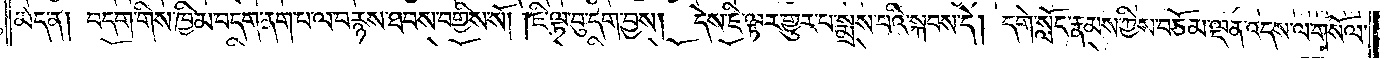མད་ན། བདག་གིས་ཁྱིམ་བདག་ནག་པ་ལ་བརྙས་ཐབས་བགྱིས་སོ། །ཇི་ལྟ་བུ་དག་བྱས། དེས་ཇི་ལྟར་གྱུར་པ་སྨྲས་པའི་སྐབས་དེ། དགེ་སློང་རྣམས་ཀྱིས་བཅོམ་ལྡན་འདས་ལ་གསོལ་
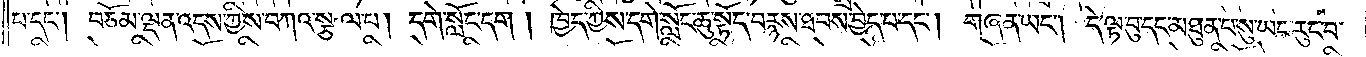པ་དང༌། བཅོམ་ལྡན་འདས་ཀྱིས་བཀའ་སྩལ་པ། དགེ་སློང་དག །ཁྱེད་ཀྱིས་དགེ་སློང་ཆུ་སྟོད་བརྙས་ཐབས་བྱེད་པ་དང༌། གཞན་ཡང༌། དེ་ལྟ་བུ་དང་མཐུན་པ་སུ་ཡང་རུང་བ་
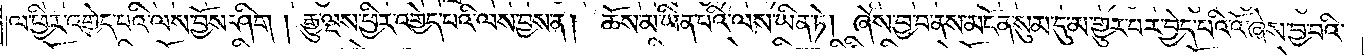ལ་ཕྱིར་འགྱེད་པའི་ལས་བྱོས་ཤིག །རྒྱུ་ལྔས་ཕྱིར་འགྱེད་པའི་ལས་བྱས་ན། ཆོས་མ་ཡིན་པའི་ལས་ཡིན་ཏེ། ཞེས་བྱ་བ་ནས་མངོན་སུམ་དུ་མ་གྱུར་པར་བྱེད་པའི་འོ་ཞེས་བྱ་བའི་
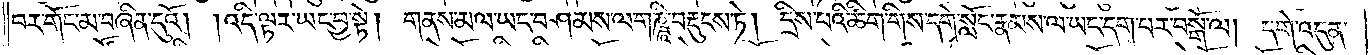བར་གོང་མ་བཞིན་དུའོ། །འདི་ལྟར་ཡང་བྱ་སྟེ། གནས་མལ་ཡང་བཤམས་ལ་གཎྜཱི་བརྡུངས་ཏེ། དྲིས་པའི་ཚིག་གིས་དགེ་སློང་རྣམས་ལ་ཡང་དག་པར་བསྒོ་ལ། དགེ་འདུན་
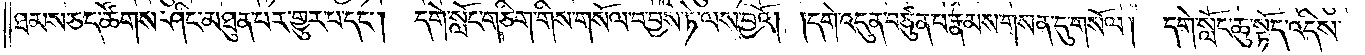ཐམས་ཅད་ཚོགས་ཤིང་མཐུན་པར་གྱུར་པ་དང༌། དགེ་སློང་གཅིག་གིས་གསོལ་བ་བྱས་ཏེ་ལས་བྱའོ། །དགེ་འདུན་བཙུན་པ་རྣམས་གསན་དུ་གསོལ། དགེ་སློང་ཆུ་སྟོད་འདིས་
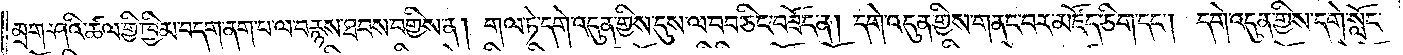མྲག་ཤའི་ཚལ་གྱི་ཁྱིམ་བདག་ནག་པ་ལ་བརྙས་ཐབས་བགྱིས་ན། གལ་ཏེ་དགེ་འདུན་གྱིས་དུས་ལ་བབ་ཅིང་བཟོད་ན། དགེ་འདུན་གྱིས་གནང་བར་མཛོད་ཅིག་དང༌། དགེ་འདུན་གྱིས་དགེ་སློང་
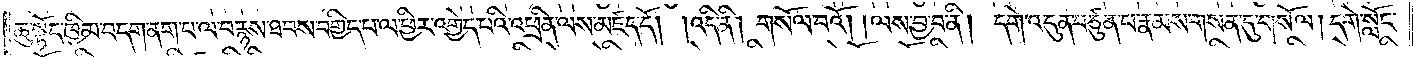ཆུ་སྟོད་ཁྱིམ་བདག་ནག་པ་ལ་བརྙས་ཐབས་བགྱིད་པ་ལ་ཕྱིར་འགྱེད་པའི་འཕྲིན་ལས་མཛད་དོ། །འདི་ནི། གསོལ་བའོ། །ལས་བྱ་བ་ནི། དགེ་འདུན་བཙུན་པ་རྣམས་གསན་དུ་གསོལ། དགེ་སློང་
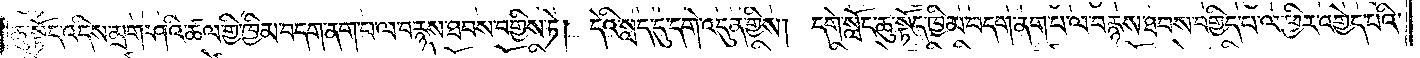ཆུ་སྟོད་འདིས་མྲག་ཤའི་ཚལ་གྱི་ཁྱིམ་བདག་ནག་པ་ལ་བརྙས་ཐབས་བགྱིས་ཏེ། དེའི་སླད་དུ་དགེ་འདུན་གྱིས། དགེ་སློང་ཆུ་སྟོད་ཁྱིམ་བདག་ནག་པ་ལ་བརྙས་ཐབས་བགྱིད་པ་ལ་ཕྱིར་འགྱེད་པའི་
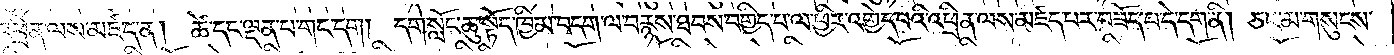འཕྲིན་ལས་མཛད་ན། ཚེ་དང་ལྡན་པ་གང་དག །དགེ་སློང་ཆུ་སྟོད་ཁྱིམ་བདག་ལ་བརྙས་ཐབས་བགྱིད་པ་ལ་ཕྱིར་འགྱེད་པའི་འཕྲིན་ལས་མཛད་པར་བཟོད་པ་དེ་དག་ནི། ཅང་མ་གསུངས་
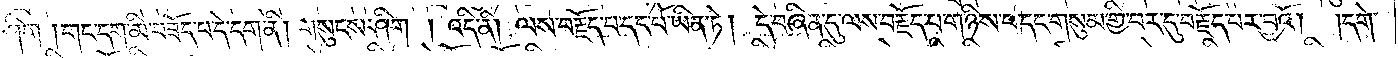ཤིག །གང་དག་མི་བཟོད་པ་དེ་དག་ནི། གསུངས་ཤིག །འདི་ནི། ལས་བརྗོད་པ་དང་པོ་ཡིན་ཏེ། དེ་བཞིན་དུ་ལས་བརྗོད་པ་གཉིས་པ་དང་གསུམ་གྱི་བར་དུ་བརྗོད་པར་བྱའོ། །དགེ་
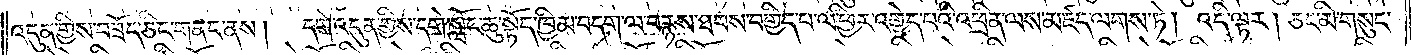འདུན་གྱིས་བཟོད་ཅིང་གནང་ནས། དགེ་འདུན་གྱིས་དགེ་སློང་ཆུ་སྟོད་ཁྱིམ་བདག་ལ་བརྙས་ཐབས་བགྱིད་པ་ལ་ཕྱིར་འགྱེད་པའི་འཕྲིན་ལས་མཛད་ལགས་ཏེ། འདི་ལྟར། ཅང་མི་གསུང་
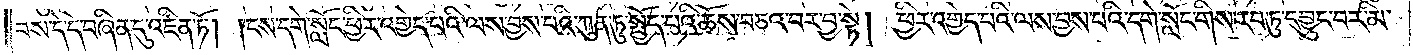བས་དེ་དེ་བཞིན་དུ་འཛིན་ཏོ། །ངས་དགེ་སློང་ཕྱིར་འགྱེད་པའི་ལས་བྱས་པའི་ཀུན་ཏུ་སྤྱོད་པའི་ཆོས་བཅའ་བར་བྱ་སྟེ། ཕྱིར་འགྱེད་པའི་ལས་བྱས་པའི་དགེ་སློང་གིས་རབ་ཏུ་དབྱུང་བར་མི་
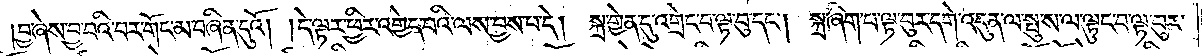བྱ་ཞེས་བྱ་བའི་བར་གོང་མ་བཞིན་དུའོ། །དེ་ལྟར་ཕྱིར་འགྱེད་པའི་ལས་བྱས་པ་དེ། སྐྲ་གྱེན་དུ་འགྲེང་བ་ལྟ་བུ་དང༌། སྐྲ་ཞིག་པ་ལྟ་བུར་དགེ་འདུན་ལ་སྤུ་ས་ལ་ལྟུང་བ་ལྟ་བུར་
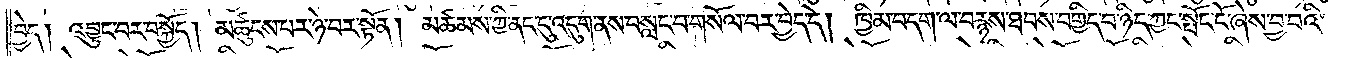བྱེད། འབྱུང་བར་བསྐྱོད། མཚུངས་པར་ཉེ་བར་སྟོན། མཚམས་ཀྱི་ནང་དུ་འདུག་ནས་བསླང་བ་གསོལ་བར་བྱེད་དེ། ཁྱིམ་བདག་ལ་བརྙས་ཐབས་བགྱིད་བ་ཉིད་ཀྱང་སྤོང་ངོ་ཞེས་བྱ་བའི་
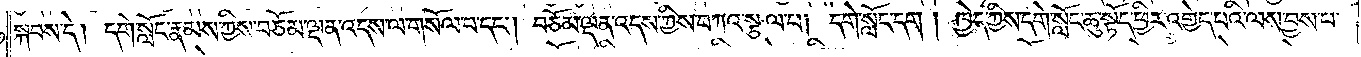སྐབས་དེ། དགེ་སློང་རྣམས་ཀྱིས་བཅོམ་ལྡན་འདས་ལ་གསོལ་པ་དང༌། བཅོམ་ལྡན་འདས་ཀྱིས་བཀའ་སྩལ་པ། དགེ་སློང་དག །ཁྱེད་ཀྱིས་དགེ་སློང་ཆུ་སྟོད་ཕྱིར་འགྱེད་པའི་ལས་བྱས་པ་
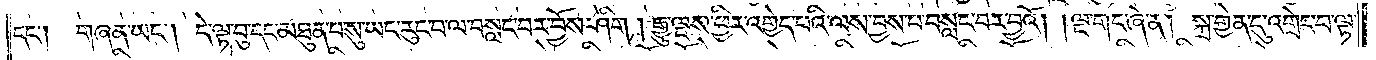དང༌། གཞན་ཡང༌། དེ་ལྟ་བུ་དང་མཐུན་པ་སུ་ཡང་རུང་བ་ལ་བསླང་བར་བྱོས་ཤིག །རྒྱུ་ལྔས་ཕྱིར་འགྱེད་པའི་ལས་བྱས་པ་བསླང་བར་བྱའོ། །ལྔ་གང་ཞེ་ན། སྐྲ་གྱེན་དུ་འགྲེང་བ་ལྟ་
